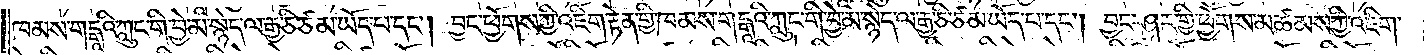ཁམས་གངྒཱའི་ཀླུང་གི་བྱེ་མ་སྙེད་ལ་རྒྱ་ཅི་ཙམ་ཡོད་པ་དང༌། བྱང་ཕྱོགས་ཀྱི་འཇིག་རྟེན་གྱི་ཁམས་གངྒཱའི་ཀླུང་གི་བྱེ་མ་སྙེད་ལ་རྒྱ་ཅི་ཙམ་ཡོད་པ་དང༌། བྱང་ཤར་གྱི་ཕྱོགས་མཚམས་ཀྱི་འཇིག་
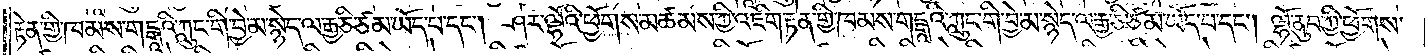རྟེན་གྱི་ཁམས་གངྒཱའི་ཀླུང་གི་བྱེ་མ་སྙེད་ལ་རྒྱ་ཅི་ཙམ་ཡོད་པ་དང༌། ཤར་ལྷོའི་ཕྱོགས་མཚམས་ཀྱི་འཇིག་རྟེན་གྱི་ཁམས་གངྒཱའི་ཀླུང་གི་བྱེ་མ་སྙེད་ལ་རྒྱ་ཅི་ཙམ་ཡོད་པ་དང༌། ལྷོ་ནུབ་ཀྱི་ཕྱོགས་
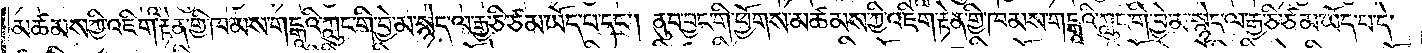མཚམས་ཀྱི་འཇིག་རྟེན་གྱི་ཁམས་གངྒཱའི་ཀླུང་གི་བྱེ་མ་སྙེད་ལ་རྒྱ་ཅི་ཙམ་ཡོད་པ་དང༌། ནུབ་བྱང་གི་ཕྱོགས་མཚམས་ཀྱི་འཇིག་རྟེན་གྱི་ཁམས་གངྒཱའི་ཀླུང་གི་བྱེ་མ་སྙེད་ལ་རྒྱ་ཅི་ཙམ་ཡོད་པ་དེ་
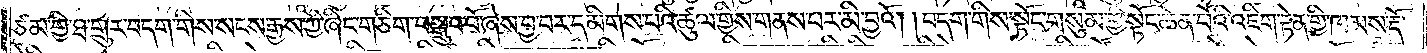ཙམ་གྱི་ཐ་གྲུར་བདག་གིས་སངས་རྒྱས་ཀྱི་ཞིང་གཅིག་བསྒྲུབ་བོ་ཞེས་བྱ་བར་དམིགས་པའི་ཚུལ་གྱིས་གནས་པར་མི་བྱའོ། །བདག་གིས་སྟོང་གསུམ་གྱི་སྟོང་ཆེན་པོའི་འཇིག་རྟེན་གྱི་ཁམས་རྡོ་
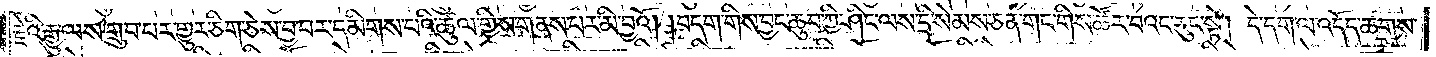རྗེའི་རྒྱུ་ལས་གྲུབ་པར་གྱུར་ཅིག་ཅེས་བྱ་བར་དམིགས་པའི་ཚུལ་གྱིས་གནས་པར་མི་བྱའོ། །བདག་གིས་བྱང་ཆུབ་ཀྱི་ཤིང་ལས་དྲི་སེམས་ཅན་གང་གིས་ཚོར་བའང་རུང་སྟེ། དེ་དག་ལ་འདོད་ཆགས་
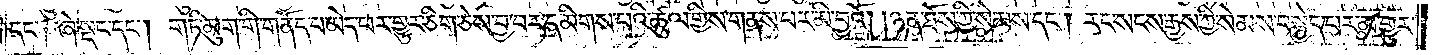དང༌༏ ཞེ་སྡང་དང༌། གཏི་མུག་གི་གནོད་པ་མེད་པར་གྱུར་ཅིག་ཅེས་བྱ་བར་དམིགས་པའི་ཚུལ་གྱིས་གནས་པར་མི་བྱའོ། །ཉན་ཐོས་ཀྱིས་སེམས་དང༌། རང་སངས་རྒྱས་ཀྱི་སེམས་བསྐྱེད་པར་མ་གྱུར་
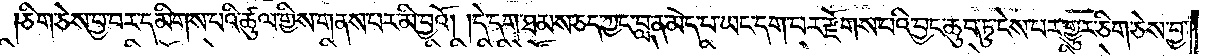ཅིག་ཅེས་བྱ་བར་དམིགས་པའི་ཚུལ་གྱིས་གནས་པར་མི་བྱའོ། །དེ་དག་ཐམས་ཅད་ཀྱང་བླ་ན་མེད་པ་ཡང་དག་པར་རྫོགས་པའི་བྱང་ཆུབ་ཏུ་ངེས་པར་གྱུར་ཅིག་ཅེས་བྱ་
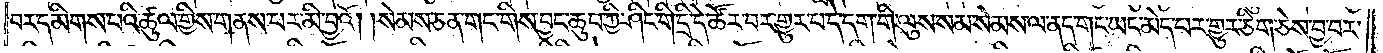བར་དམིགས་པའི་ཚུལ་གྱིས་གནས་པར་མི་བྱའོ། །སེམས་ཅན་གང་གིས་བྱང་ཆུབ་ཀྱི་ཤིང་གི་དྲི་དེ་ཚོར་བར་གྱུར་པ་དེ་དག་གི་ལུས་སམ་སེམས་ལ་ནད་གང་ཡང་མེད་པར་གྱུར་ཅིག་ཅེས་བྱ་བར་
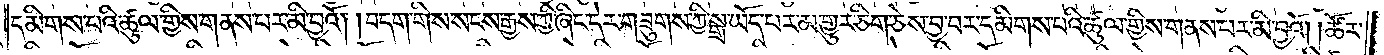དམིགས་པའི་ཚུལ་གྱིས་གནས་པར་མི་བྱའོ། །བདག་གིས་སངས་རྒྱས་ཀྱི་ཞིང་དེར་གཟུགས་ཀྱི་སྒྲ་ཡོད་པར་མ་གྱུར་ཅིག་ཅེས་བྱ་བར་དམིགས་པའི་ཚུལ་གྱིས་གནས་པར་མི་བྱའོ། །ཚོར་
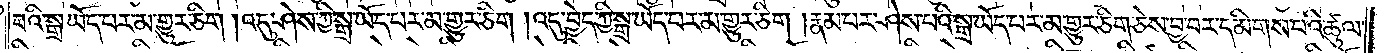བའི་སྒྲ་ཡོད་པར་མ་གྱུར་ཅིག །འདུ་ཤེས་ཀྱི་སྒྲ་ཡོད་པར་མ་གྱུར་ཅིག །འདུ་བྱེད་ཀྱི་སྒྲ་ཡོད་པར་མ་གྱུར་ཅིག །རྣམ་པར་ཤེས་པའི་སྒྲ་ཡོད་པར་མ་གྱུར་ཅིག་ཅེས་བྱ་བར་དམིགས་པའི་ཚུལ་
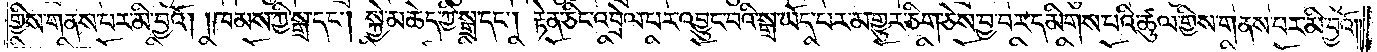གྱིས་གནས་པར་མི་བྱའོ། །ཁམས་ཀྱི་སྒྲ་དང༌། སྐྱེ་མཆེད་ཀྱི་སྒྲ་དང༌། རྟེན་ཅིང་འབྲེལ་བར་འབྱུང་བའི་སྒྲ་ཡོད་པར་མ་གྱུར་ཅིག་ཅེས་བྱ་བར་དམིགས་པའི་ཚུལ་གྱིས་གནས་པར་མི་བྱའོ། །
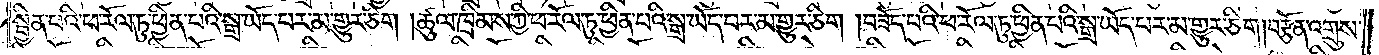སྦྱིན་པའི་ཕ་རོལ་ཏུ་ཕྱིན་པའི་སྒྲ་ཡོད་པར་མ་གྱུར་ཅིག །ཚུལ་ཁྲིམས་ཀྱི་ཕ་རོལ་ཏུ་ཕྱིན་པའི་སྒྲ་ཡོད་པར་མ་གྱུར་ཅིག །བཟོད་པའི་ཕ་རོལ་ཏུ་ཕྱིན་པའི་སྒྲ་ཡོད་པར་མ་གྱུར་ཅིག །བརྩོན་འགྲུས་
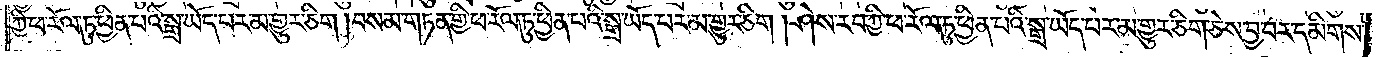ཀྱི་ཕ་རོལ་ཏུ་ཕྱིན་པའི་སྒྲ་ཡོད་པར་མ་གྱུར་ཅིག །བསམ་གཏན་གྱི་ཕ་རོལ་ཏུ་ཕྱིན་པའི་སྒྲ་ཡོད་པར་མ་གྱུར་ཅིག །ཤེས་རབ་ཀྱི་ཕ་རོལ་ཏུ་ཕྱིན་པའི་སྒྲ་ཡོད་པར་མ་གྱུར་ཅིག་ཅེས་བྱ་བར་དམིགས་
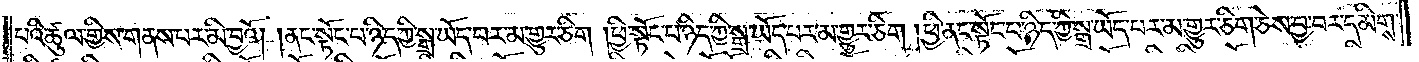པའི་ཚུལ་གྱིས་གནས་པར་མི་བྱའོ། །ནང་སྟོང་པ་ཉིད་ཀྱི་སྒྲ་ཡོད་པར་མ་གྱུར་ཅིག །ཕྱི་སྟོང་པ་ཉིད་ཀྱི་སྒྲ་ཡོང་བར་མ་གྱུར་ཅིག །ཕྱི་ནང་སྟོང་པ་ཉིད་ཀྱི་སྒྲ་ཡོད་པར་མ་གྱུར་ཅིག་ཅེས་བྱ་བར་དམིགས་
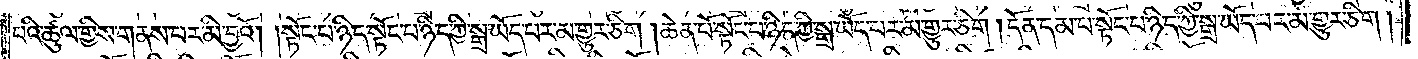པའི་ཚུལ་གྱིས་གནས་པར་མི་བྱའོ། །སྟོང་པ་ཉིད་སྟོང་པ་ཉིད་ཀྱི་སྒྲ་ཡོད་པར་མ་གྱུར་ཅིག །ཆེན་པོ་སྟོང་པ་ཉིད་ཀྱི་སྒྲ་ཡོད་པར་མ་གྱུར་ཅིག །དོན་དམ་པ་སྟོང་པ་ཉིད་ཀྱི་སྒྲ་ཡོད་པར་མ་གྱུར་ཅིག །
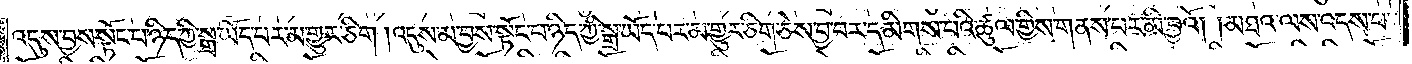འདུས་བྱས་སྟོང་པ་ཉིད་ཀྱི་སྒྲ་ཡོད་པར་མ་གྱུར་ཅིག །འདུས་མ་བྱས་སྟོང་པ་ཉིད་ཀྱི་སྒྲ་ཡོད་པར་མ་གྱུར་ཅིག་ཅེས་བྱ་བར་དམིགས་པའི་ཚུལ་གྱིས་གནས་པར་མི་བྱའོ། །མཐའ་ལས་འདས་པ་
